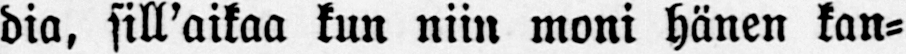dia, sill'aikaa kun niin moni hänen kan-
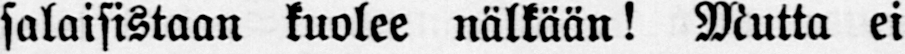salaisistaan kuolee nälkään! Mutta ei
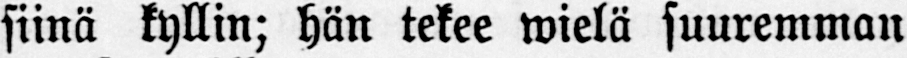siinä kyllin; hän tekee wielä suuremman
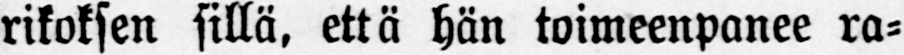rikoksen sillä, että hän toimeenpanee ra-
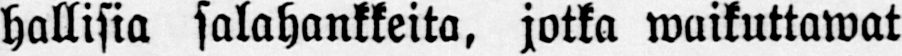hallisia salahankkeita, jotka waikuttawat
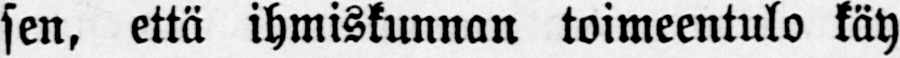sen, että ihmiskunnan toimeentulo käy
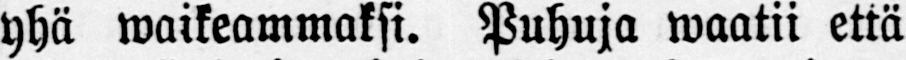yhä waikeammaksi. Puhuja waatii että
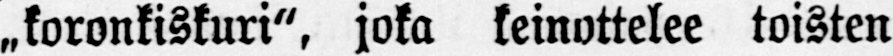„koronkiskuri", joka keinottelee toisten
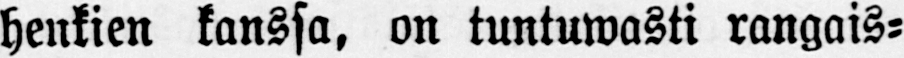henkien kanssa, on tuntuwasti rangais-
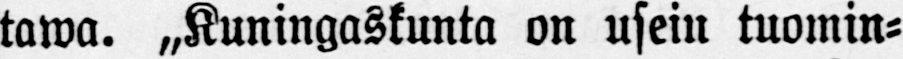tawa. „Kuningaskunta on usein tuomin-
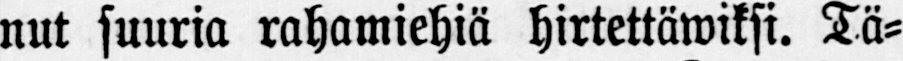nut suuria rahamiehiä hirtettäwiksi. Tä-
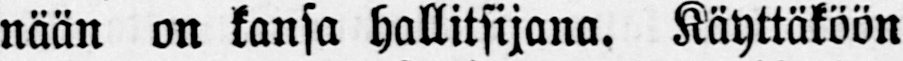nään on kansa hallitsijana. Käyttäköön
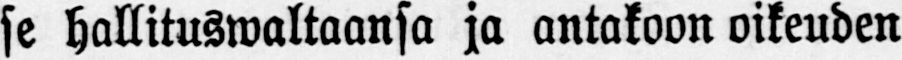se hallituswaltaansa ja antakoon oikeuden
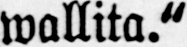wallita."
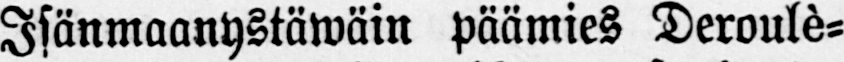Isänmaanystäwäin päämies Deroulè-
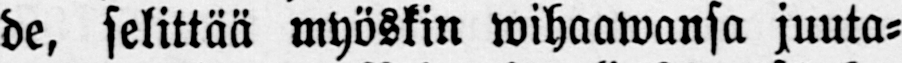de, selittää myöskin wihaawansa juuta-
